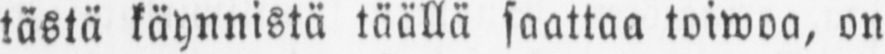tästä käynnistä täällä saattaa toiwoa, on
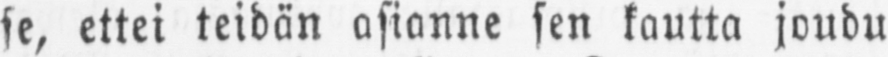se, ettei teidän asianne sen kautta joudu
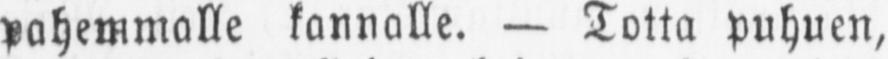pahemmalle kannolle. — Totta puhuen,
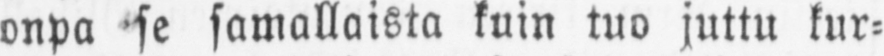onpa se samallaista kuin tuo juttu kur-
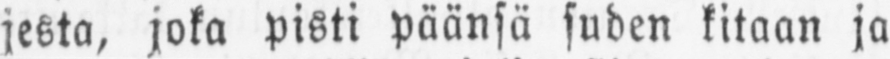jesta, joka pisti päänsä suden kitaan ja
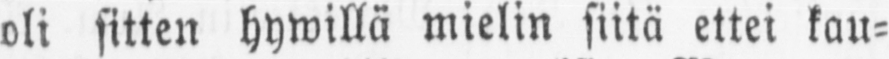oli sitten hywillä mielin siitä ettei kau-
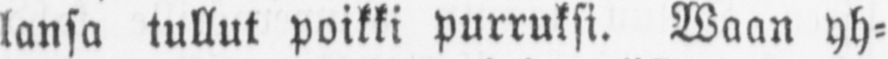lansa tullut poikki purruksi. Waan yh-
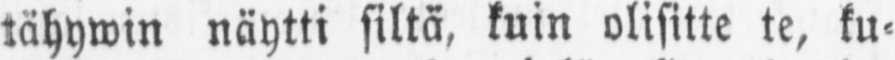lähywin näytti siltä, kuin olisitte te, ku-
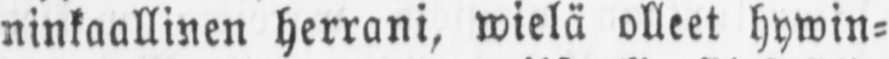ninkaallinen herrani, wielä olleet hywin-
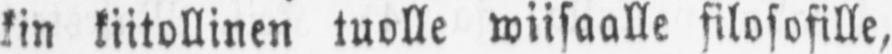kin kiitollinen tuolle wiisaalle filosofille,
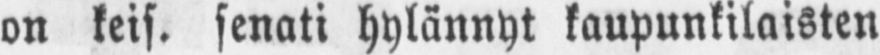on keis. senati hylännyt kaupunkilaisten
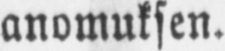anomuksen.
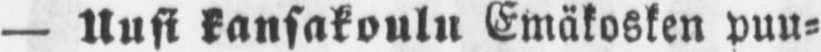— Uusi kansakoulu Emäkosken puu-
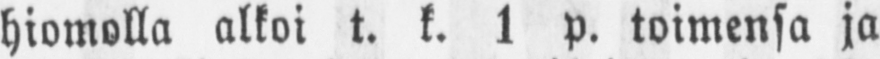hiomolla alkoi t. k. 1 p. toimensa ja
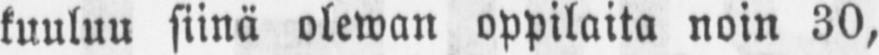kuuluu siinä olewan oppilaita noin 30,
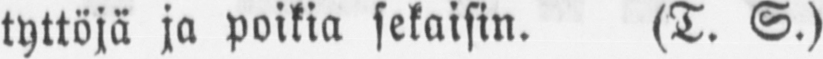tyttöjä ja poikia sekaisin. (T. S.)
